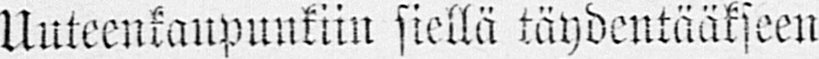Uuteenkaupunkiin siellä täydentääkseen
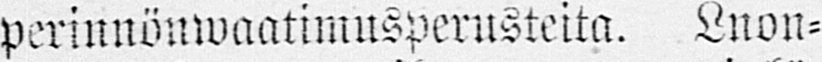perinnönwaatimusperusteita. Luon-
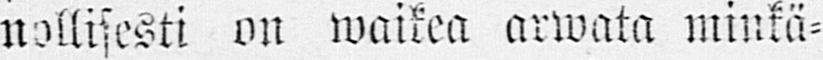nollisesti on waikea arwata minkä-
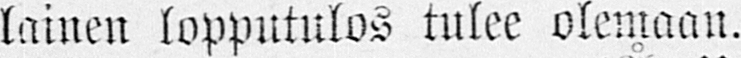lainen lopputulos tulee olemaan.
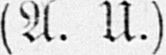(Å. U.)
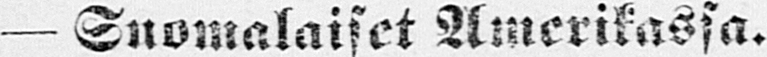— Suomalaiset Amerikassa.
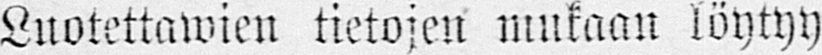Luotettawien tietojen mukaan löytyy
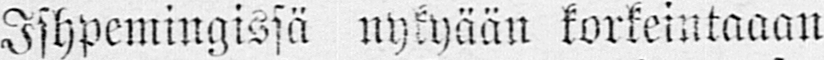Ishpemingissä nykyään korkeintaaan
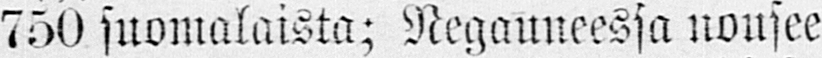750 suomalaista; Negauneessa nousee
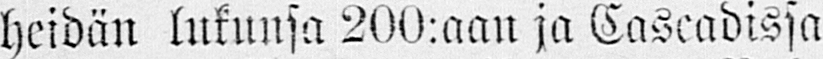heidän lukunsa 200:aan ja Cascadissa
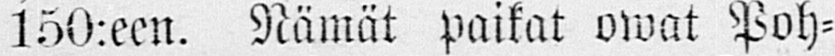150:een. Nämät paikat owat Poh-
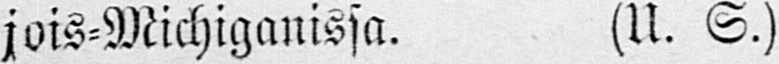jois-Michiganissa. (U. S.)
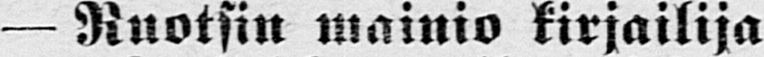— Ruotsin mainio kirjailija
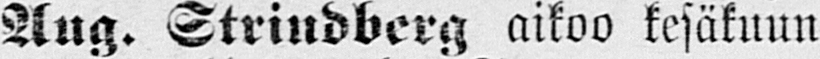Aug. Strindberg aikoo kesäkuun
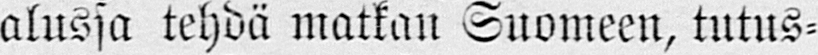alussa tehdä matkan Suomeen, tutus-
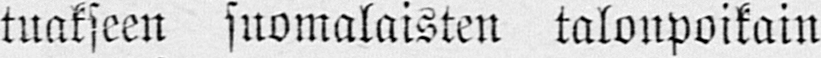tuakseen suomalaisten talonpoikain
